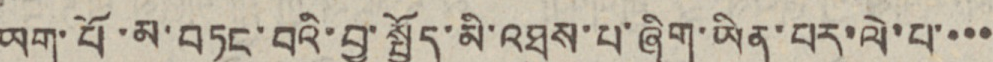ཡག་པོ་མ་བཏང་བའི་བྱ་སྤྱོད་མི་འཐུས་པ་ཞིག་ཡིན་པར་ལེ་པ་་་་
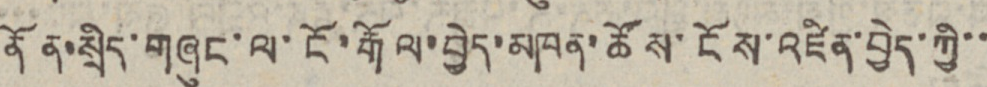ནོན་སྲིད་གཞུང་ལ་ངོ་རྒོལ་བྱེད་མཁན་ཚོས་ངོས་འཛིན་བྱེད་ཀྱི་་
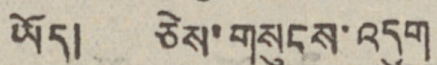ཡོད། ཅེས་གསུངས་འདུག
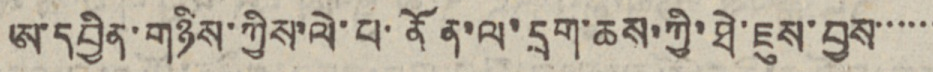ཨ་དབྱིན་གཉིས་ཀྱིས་ལེ་པ་ནོན་ལ་དྲག་ཆས་ཀྱི་ཐེ་ཇུས་བྱས་་་་་་
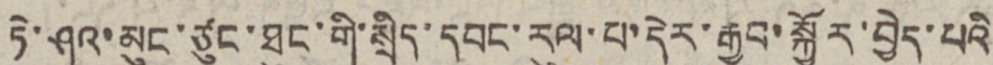ཏེ་ཤའ་མུང་ཙུང་ཐུང་གི་སྲིད་དབང་རུལ་པ་དེར་རྒྱབ་སྐྱོར་བྱེད་པའི་
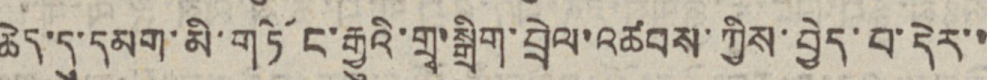ཆེད་དུ་དམག་མི་གཏོང་རྒྱུའི་གྲྭ་སྒྲིག་བྲེལ་འཚབས་ཀྱིས་བྱེད་པ་དེར་་
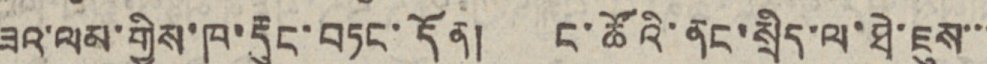ཟའ་ལམ་གྱིས་ཁ་རྡུང་བཏང་དོན། ང་ཚོའི་ནང་སྲིད་ལ་ཐེ་ཇུས་་་
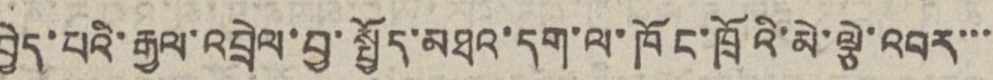བྱེད་པའི་རྒྱལ་འབྲེལ་བྱ་སྤྱོད་མཐའ་དག་ལ་ཁོང་ཁྲོའི་མེ་ལྕེ་འབར་་་
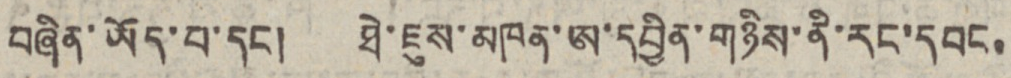བཞིན་ཡོད་པ་དང། ཐེ་ཇུས་མཁན་ཨ་དབྱིན་གཉིས་ནི་རང་དབང་
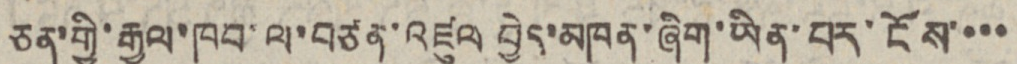ཅན་གྱི་རྒྱལ་ཁབ་ལ་བཙན་འཛུལ བྱེད་མཁན་ཞིག་ཡིན་པར་ངོས་་་་
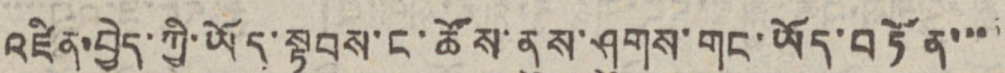འཛིན་བྱེད་ཀྱི་ཡོད་སྟབས་ང་ཚོས་ནུས་ཤུགས་གང་ཡོད་བཏོན་་་
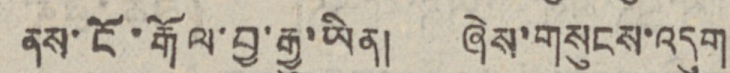ནས་ངོ་རྒོལ་བྱ་རྒྱུ་ཡིན། ཞེས་གསུངས་འདུག
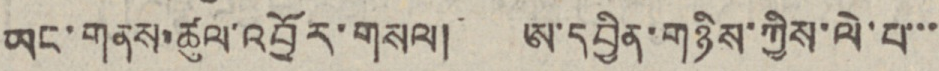ཡང་གནས་ཚུལ་འབྱོར་གསལ། ཨ་དབྱིན་གཉིས་ཀྱིས་ལེ་པ་་་
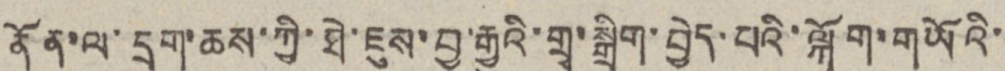ནོན་ལ་དྲག་ཆས་ཀྱི་ཐེ་ཇུས་བྱ་རྒྱུའི་གྲྭ་སྒྲིག་བྱེད་པའི་ལྐོག་གཡོའི་
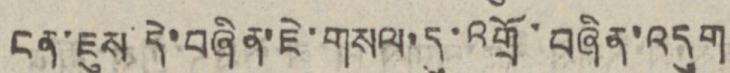ངན་ཇུས་དེ་བཞིན་ཇེ་གསལ་དུ་འགྲོ་བཞིན་འདུག
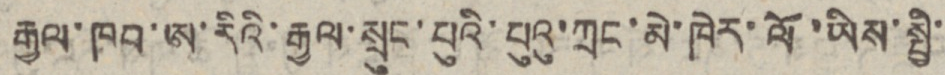རྒྱལ་ཁབ་ཨ་རིའི་རྒྱལ་སྲུང་བུའི་པུའུ་ཀྲང་མེ་ཁེར་ལོ་ཡིས་སྤྱི་
